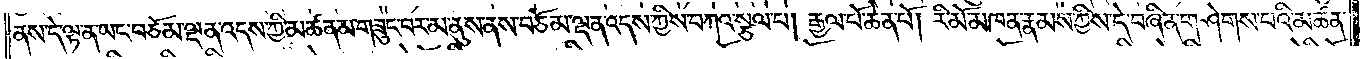ནས་དེ་ལྟ་ན་ཡང་བཅོམ་ལྡན་འདས་ཀྱི་མཚན་མ་གཟུང་བར་མ་ནུས་ནས་བཅོམ་ལྡན་འདས་ཀྱིས་བཀའ་སྩལ་པ། རྒྱལ་པོ་ཆེན་པོ། རི་མོ་མཁན་རྣམས་ཀྱིས་དེ་བཞིན་གཤེགས་པའི་མཚན་
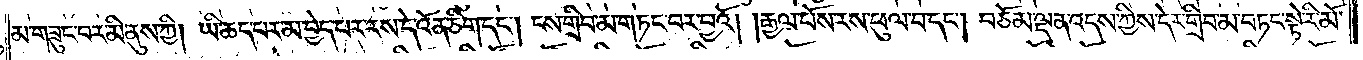མ་གཟུང་བར་མི་ནུས་ཀྱི། ཡི་ཆད་པར་མ་བྱེད་པར་རས་དེ་འོན་ཅིག་དང༌། ངས་གྲིབ་མ་གཏང་བར་བྱའོ། །རྒྱལ་པོས་རས་ཕུལ་བ་དང༌། བཅོམ་ལྡན་འདས་ཀྱིས་དེར་གྲིབ་མ་བཏང་སྟེ་རི་མོ་
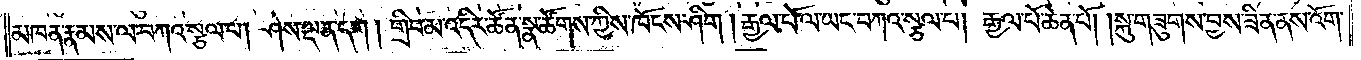མཁན་རྣམས་ལ་བཀའ་སྩལ་པ། ཤེས་ལྡན་དག །གྲིབ་མ་འདིར་ཚོན་སྣ་ཚོགས་ཀྱིས་ཁོངས་ཤིག །རྒྱལ་པོ་ལ་ཡང་བཀའ་སྩལ་པ། རྒྱལ་པོ་ཆེན་པོ། །སྐུ་གཟུགས་བྱས་ཟིན་ནས་འོག་
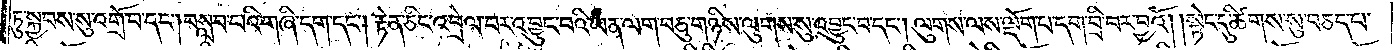ཏུ་སྐྱབས་སུ་འགྲོ་བ་དང༌། བསླབ་པའི་གཞི་དག་དང༌། རྟེན་ཅིང་འབྲེལ་བར་འབྱུང་བའི་ཡན་ལག་བཅུ་གཉིས་ལུགས་སུ་འབྱུང་བ་དང༌། ལུགས་ལས་ལྡོག་པ་དག་བྲི་བར་བྱའོ། །སྟེང་དུ་ཚིགས་སུ་བཅད་པ་
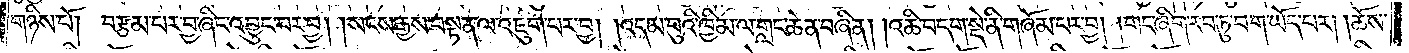གཉིས་པོ། བརྩམ་པར་བྱ་ཞིང་འབྱུང་བར་བྱ། །སངས་རྒྱས་བསྟན་ལ་འཇུག་པར་བྱ། །འདམ་བུའི་ཁྱིམ་ལ་གླང་ཆེན་བཞིན། །འཆི་བདག་སྡེ་ནི་གཞོམ་པར་བྱ། །གང་ཞིག་རབ་ཏུ་བག་ཡོད་པར། །ཆོས་
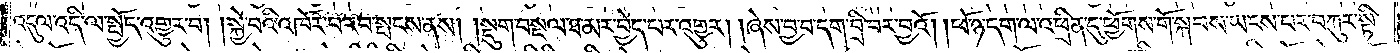འདུལ་འདི་ལ་སྤྱོད་འགྱུར་བ། །སྐྱེ་བའི་འཁོར་བ་རབ་སྤངས་ནས། །སྡུག་བསྔལ་ཐ་མར་བྱེད་པར་འགྱུར། །ཞེས་བྱ་བ་དག་བྲི་བར་བྱའོ། །ཕོ་ཉ་དག་ལ་འཕྲིན་དུ་ཕྱོགས་གོ་སྐབས་ཡངས་པར་བཀུར་སྟི་
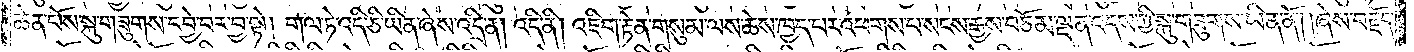ཆེན་པོས་སྐུ་གཟུགས་དབྱེ་བར་བྱ་སྟེ། གལ་ཏེ་འདི་ཅི་ཡིན་ཞེས་འདྲི་ན། འདི་ནི། འཇིག་རྟེན་གསུམ་ལས་ཆེས་ཁྱད་པར་འཕགས་པ་སངས་རྒྱས་བཅོམ་ལྡན་འདས་ཀྱི་སྐུ་གཟུགས་ཡིན་ནོ། །ཞེས་བརྗོད་
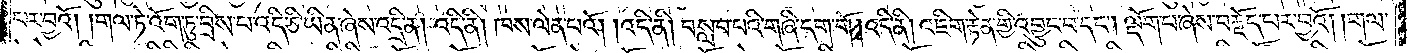པར་བྱའོ། །གལ་ཏེ་འོག་ཏུ་བྲིས་པ་འདི་ཅི་ཡིན་ཞེས་འདྲི་ན། འདི་ནི། ཁས་ལེན་པའོ། །འདི་ནི། བསླབ་པའི་གཞི་དག་གོ །འདི་ནི། འཇིག་རྟེན་གྱི་འབྱུང་བ་དང༌། ལྡོག་པ་ཞེས་བརྗོད་པར་བྱའོ། །གལ་
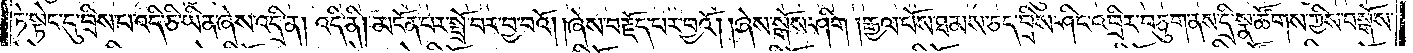ཏེ་སྟེང་དུ་བྲིས་པ་འདི་ཅི་ཡིན་ཞེས་འདྲི་ན། འདི་ནི། མངོན་པར་སྤྲོ་བར་བྱ་བའོ། །ཞེས་བརྗོད་པར་བྱའོ། །ཞེས་སྒོས་ཤིག །རྒྱལ་པོས་ཐམས་ཅད་བྲིས་ཤིང་འབྲིར་བཅུ་ག་ནས་དྲི་སྣ་ཚོགས་ཀྱིས་བསྒོས་
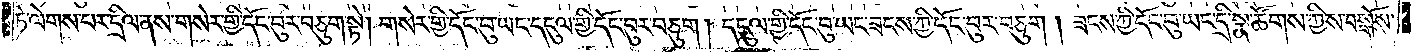ཏེ་ལེགས་པར་དྲིལ་ནས་གསེར་གྱི་དོང་བུར་བཅུག་སྟེ། གསེར་གྱི་དོང་བུ་ཡང་དངུལ་གྱི་དོང་བུ་བཅུག །དངུལ་གྱི་དོང་བུ་ཡང་ཟངས་ཀྱི་དོང་བུར་བཅུག །ཟངས་ཀྱི་དོང་བུ་ཡང་དྲི་སྣ་ཚོགས་ཀྱིས་བསྒོས་
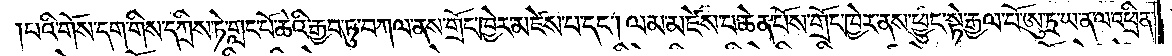པའི་གོས་དག་གིས་དཀྲིས་ཏེ་གླང་པོ་ཆེའི་རྒྱབ་ཏུ་བཀལ་ནས་གྲོང་ཁྱེར་མཛེས་པ་དང༌། ལམ་མཛེས་པ་ཆེན་པོས་གྲོང་ཁྱེར་ནས་ཕྱུང་སྟེ་རྒྱལ་པོ་ཨུ་ཏྲ་ཡ་ན་ལ་འཕྲིན་
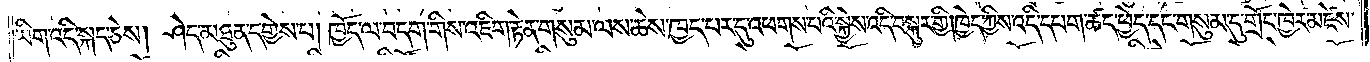ཡིག་འདི་སྐད་ཅེས། ཤེད་མཐུན་དགྱེས་པ། ཁྱོད་ལ་བདག་གིས་འཇིག་རྟེན་གསུམ་ལས་ཆེས་ཁྱད་པར་དུ་འཕགས་པའི་སྐྱེས་འདི་བསྐུར་གྱི། ཁྱེད་ཀྱིས་འདི་དཔག་ཚད་ཕྱེད་དང་གསུམ་དུ་གྲོང་ཁྱེར་མཛེས་
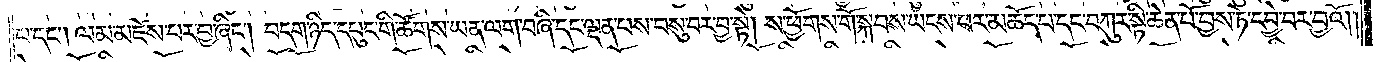པ་དང༌། ལམ་མཛེས་པར་བྱ་ཞིང༌། བདག་ཉིད་དཔུང་གི་ཚོགས་ཡན་ལག་བཞི་དང་ལྡན་པས་བསུ་བར་བྱ་སྟེ། ས་ཕྱོགས་གོ་སྐབས་ཡངས་པར་མཆོད་པ་དང་བཀུར་སྟི་ཆེན་པོ་བྱས་ཏེ་དབྱེ་བར་བྱའོ། །
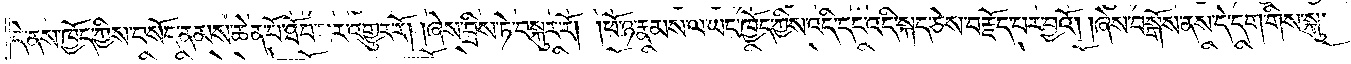དེ་ནས་ཁྱོད་ཀྱིས་བསོད་ནམས་ཆེན་པོ་ཐོབ་པར་འགྱུར་རོ། །ཞེས་བྲིས་ཏེ་བསྐུར་རོ། །ཕོ་ཉ་རྣམས་ལ་ཡང་ཁྱོད་ཀྱིས་འདི་དང་འདི་སྐད་ཅེས་བརྗོད་པར་བྱའོ། །ཞེས་བསྒོས་ནས་དེ་དག་གིས་སྐུ་
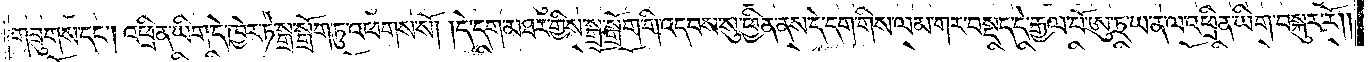གཟུགས་དང༌། འཕྲིན་ཡིག་དེ་ཁྱེར་ཏེ་སྒྲ་སྒྲོག་ཏུ་འཕགས་སོ། །དེ་དག་མཐར་གྱིས་སྒྲ་སྒྲོག་གི་འདབས་སུ་ཕྱིན་ནས་དེ་དག་གིས་ལམ་གར་བསྡད་དེ་རྒྱལ་པོ་ཨུ་ཏྲ་ཡ་ན་ལ་འཕྲིན་ཡིག་བསྐུར་རོ༎
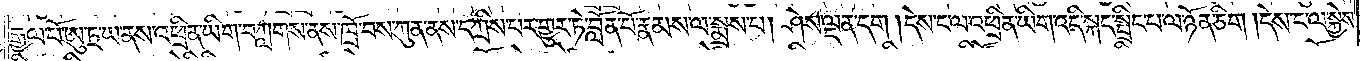རྒྱལ་པོ་ཨུ་ཏྲ་ཡ་ནས་འཕྲིན་ཡིག་བཀླགས་ནས་ཁྲོ་བས་ཀུན་ནས་དཀྲིས་པར་གྱུར་ཏེ་བློན་པོ་རྣམས་ལ་སྨྲས་པ། ཤེས་ལྡན་དག །དེས་ང་ལ་འཕྲིན་ཡིག་འདི་སྐད་སྤྲིང་བ་ལ་ཉོན་ཅིག །དེས་ང་ལ་སྐྱེས་
